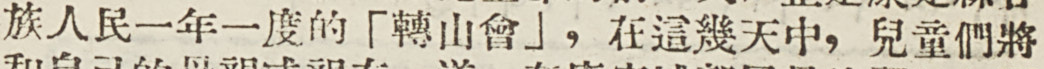族人民一年一度的「轉山會」，在這幾天中，兒童們將
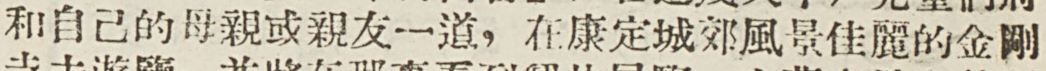和自己的母親或親友一道，在康定城郊風景佳麗的金剛
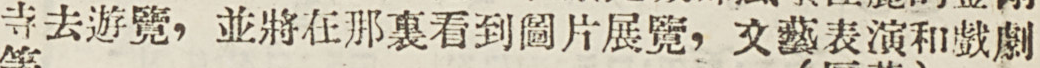寺去遊覽，並將在那裏看到圖片展覽，文藝表演和戲劇
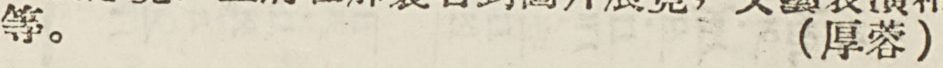等。 （厚蓉）
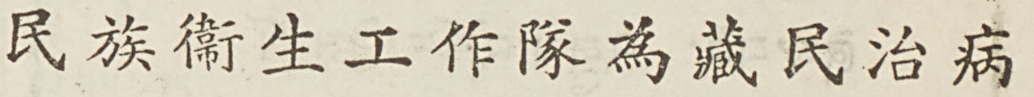民族衛生工作隊爲藏民治病
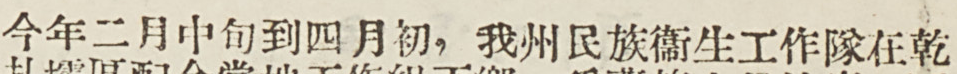今年二月中旬到四月初，我州民族衛生工作隊在乾
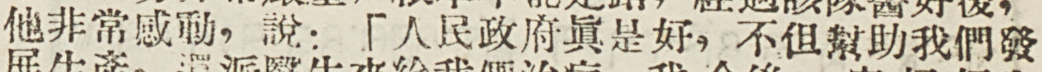他非常感動，說：「人民政府眞是好，不但幫助我們發
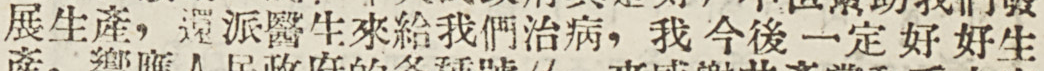展生產，還派醫生來給我們治病，我今後一定好好生
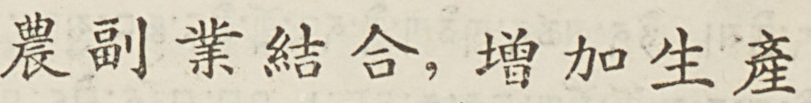農副業結合，增加生產
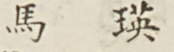馬 瑛
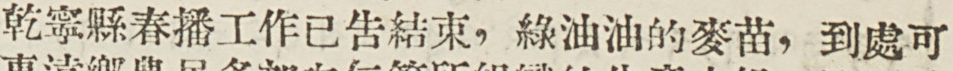乾寧縣春播工作已告結束，綠油油的麥苗，到處可
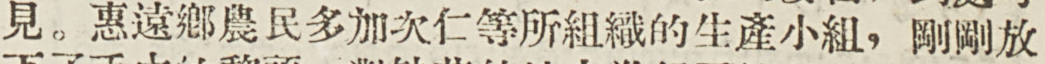見。惠遠鄉農民多加次仁等所組織的生產小組，剛剛放
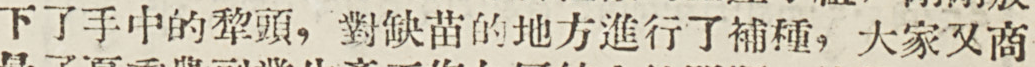下了手中的犂頭，對缺苗的地方進行了補種，大家又商
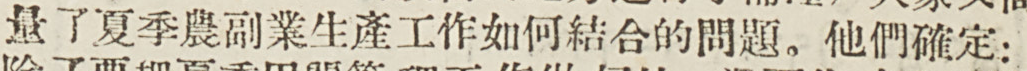量了夏季農副業生產工作如何結合的問題。他們確定：
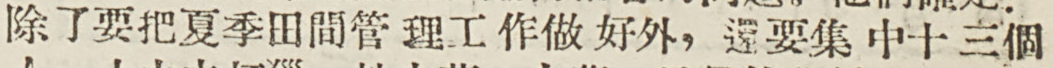除了要把夏季田間管理工作做好外，還要集中十三個
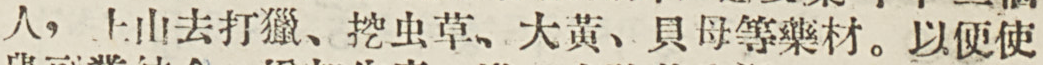人，上山去打獵、挖虫草、大黃、貝母等藥材。以便使
